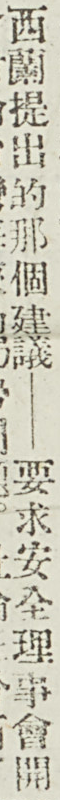西蘭提出的那個建議——要求安全理事會開
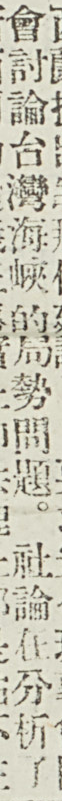會討論台灣海峽的局勢問題。社論在分析了
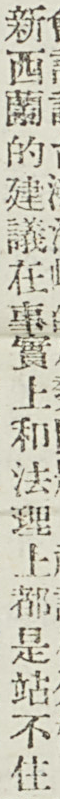新西蘭的建議在事實上和法理上都是站不住
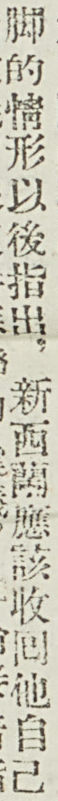腳的情形以後指出，新西蘭英國收囘他自己
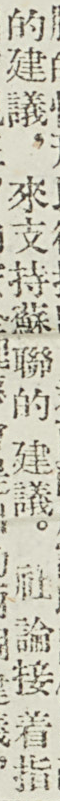的建議，來支持蘇聯的建議。社論接着指
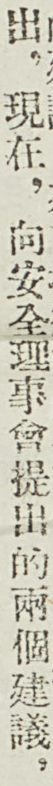出，現在，向安全理事會提出的兩個建議，
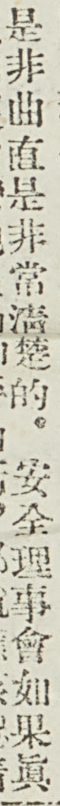是非曲直是非常清除的。安全理事會如果眞
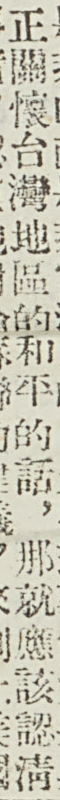正關懷台灣地區和和平的話，那就應該認清
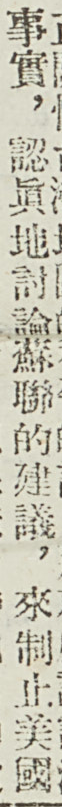事實，認眞地討論蘇聯的建議，來制止美國
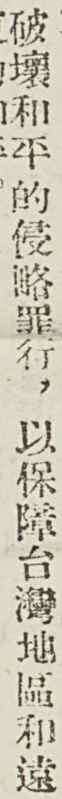破壞和平的侵略罪行，以保障台灣地區和遠
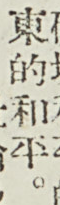東的和平。
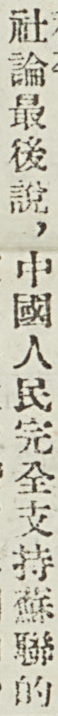社論最後說，中國人民完全支持蘇聯的
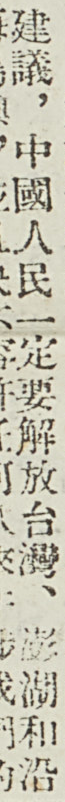建議，中國人民一定要解放台灣、澎湖和沿
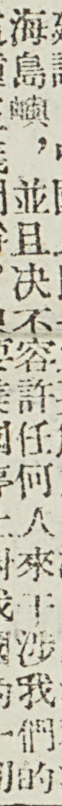海島嶼，並且決不容許任何人來干涉我們的
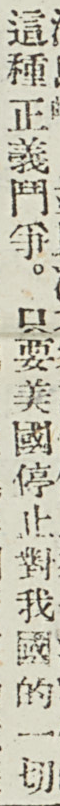這種正義鬥爭。只要美國停止對我國的一切
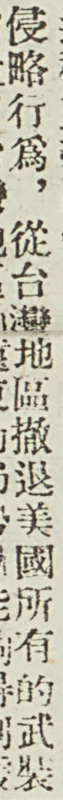侵略行爲，從台灣地區撤退美國所有的武裝
